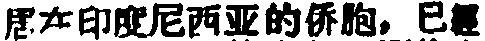居在印度尼西亚的侨胞，已經
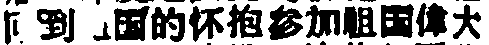回到祖国的怀抱参加祖国偉大
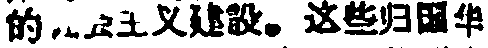的社会主义建設。这些归国华
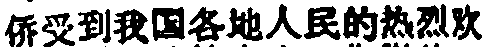侨受到我国各地人民的热烈欢
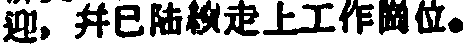迎，并已陆續定上工作崗位。
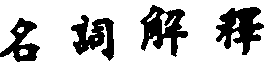名 詞 解 釋
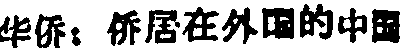华侨：侨居在外国的中国
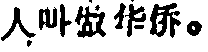人叫做华侨。
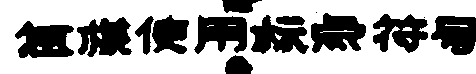怎樣使用标点符号
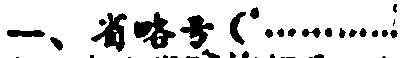一、省略号（…………
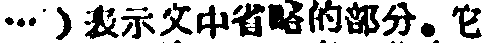…）表示文中省略的部分。它
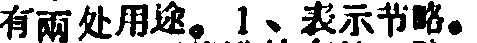有兩处用述。1、表示节略。
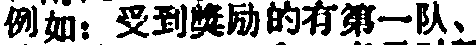例如：受到奖励的有第一队、
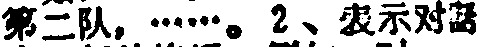第二队，……。2、支示对話
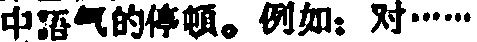中語气的停頓。例如：对……
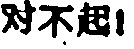对不起！
